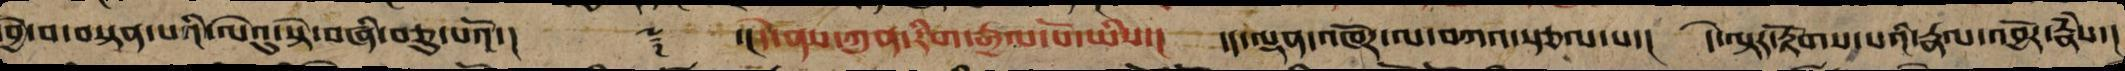བྱེ་བ་བསྟན་པའི་ལེའུ་སྟེ་བཞི་བཅུ་པའོ་།། ༈ ་།དེ་ནས་ཀུན་རིག་རྒྱལ་པོ་ཡིས་། དད་ལྡན་འཁོར་ལ་བཀའ་སྩལ་པ་། དེ་ལྟར་རྟོགས་པའི་རྣལ་འབྱོར་རྣཾས་།
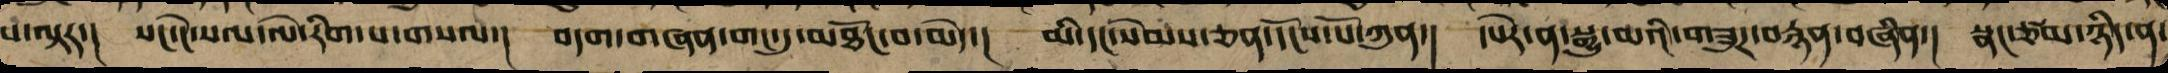པ་ལྟར་། སང་ངེ་སལ་ལེ་རིག་པ་གསལ་། བདག་གཞན་གང་དུ་མཐོང་བ་མེད་། མི་དང་སེམས་ཅན་དངོས་པོ་ཀུན་། དཔེར་ན་སྒྱུ་མའི་གཟུཌ་བརྙན་བཞིན་། སྣང་ཙམ་ཉིད་ན་
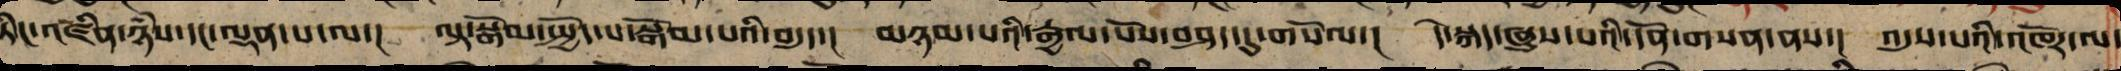ཏིང་འཛིན་ཉཾས་དང་ལྡན་པ་ལ་། ལྟ་སྒོམ་སྤྱོད་པ་སྒོམ་པའི་བདུད་། མཉམ་པའི་རྒྱལ་པོས་བཤད་དུ་གསོལ་། དེ་སྐད་ཞུས་པའི་དོན་གསན་ནས་། འདུས་པའི་འཁོར་ལ་
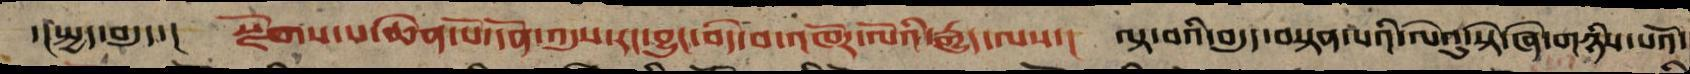་།སྤྱད་བདུད་།  སྫོགས་པ་ཆེན་པོ་དོན་འདུས་རང་བྱུང་བདེ་བའི་འཁོར་ལོའི་རྒྱུད་ལས་། ལྟ་བའི་བདུད་བསྟན་པའི་ལེའུ་སྟེ་ཞེ་གཉིས་པའོ་།
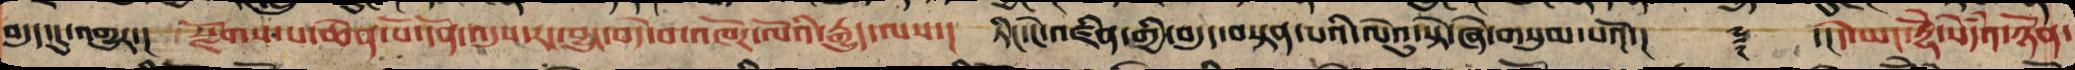བདུད་དུ་འགྱུར་།  སྫོགས་པ་ཆེན་པོ་དོན་འདུས་རང་བྱུང་བདེ་བ་འཁོར་ལོའི་རྒྱུད་ལས་། ཏིང་ངེ་འཛིན་གྱི་བདུད་བསྟན་པའི་ལེའུ་སྟེ་ཞེ་གསུམ་པའོ་།།     ༈   ་།།དེ་ཡང་རྡོེ་སེདཾའ་ཉོན་
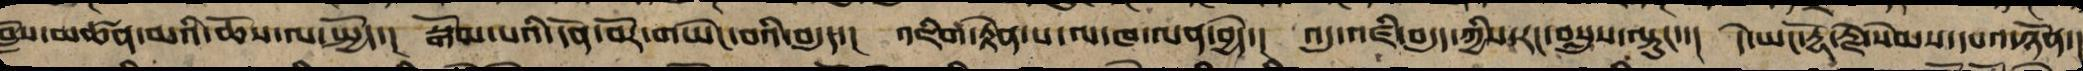བློས་མཚན་མའི་ཆོས་ལ་སྤྱོད་། སྒོམ་པའི་དོན་བོར་གཡེང་བའི་བདུད་། འཇིག་རྟེན་པ་ལ་ཁ་ལན་བྱེད་། འདུ་འཛི་བདུད་ཀྱིས་རང་བསླུས་ལྟུང་་། དེ་ཡང་རྡོ་རྗེ་སེམས་དཔའ་ཉོན་།
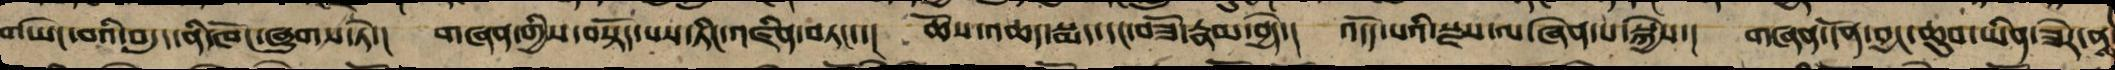གཡེང་བའི་བདུད་ནི་ཁོང་ཞུགས་ཏེ་། གཞན་གྱིས་བསྟོད་པས་ཏིང་འཛིན་བཏང་་། ཆོས་འཆད་སྨན་དང་བཟོ་རྣམ་བྱེད་། འདོད་པའི་སྫས་ལ་ཞེན་པ་སྐྱེས་། གཞན་དོན་བྱང་ཆུབ་ཡིན་ཟེར་ནས
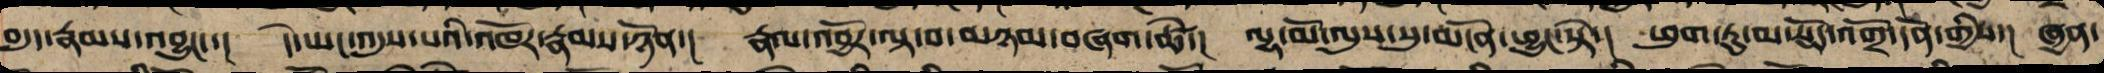བདུད་རྣམས་འབྱུང་་། དེ་ཡང་འདུས་པའི་འཁོར་རྣམས་ཉོན་། རྣལ་འབྱོར་ལྟ་བར་མཉམ་གཞག་ཚེ་། ལྷ་མོ་ལུས་སུ་མངོན་བྱུང་སྟེ་། ཕུག་ཏུ་མ་སྡོད་འགྲོ་དོན་གྱིས་། ཞྱན་
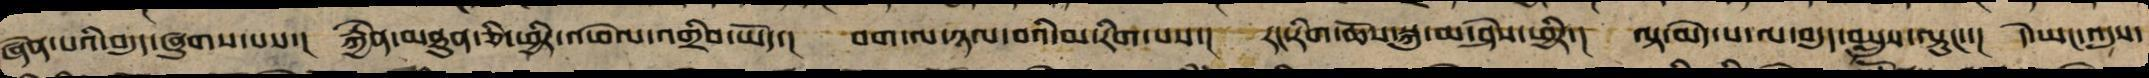ཞེན་པའི་བདུད་ཞུགས་པས་།  རྐྱེན་མཐུན་ཅི་ཕྱིར་འཕེལ་འགྲིབ་ཡོད་།  བག་ལ་ཉལ་བའི་མ་རིག་པས་།  རང་རིག་ཆོས་སྐུ་མ་ཤེས་ཕྱིར་།  ལྟ་མེད་པ་ལ་བདུད་བསླུས་ལྟུང་་།  དེ་ཡང་འདུས་
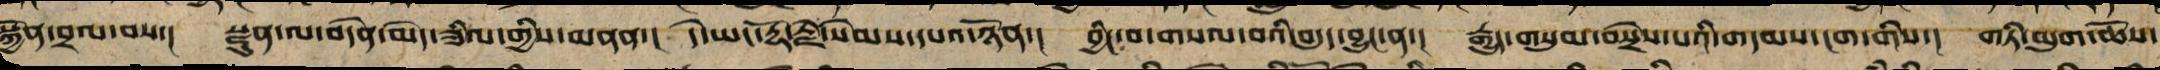སྐྱོན་བྲལ་བས་། སྫུན་ལ་བདེན་མེད་ཟིལ་གྱིས་མནན་། དེ་ཡང་རྡོ་རྗེ་སེམས་དཔའ་ཉོན་། བྱིང་བའི་གསལ་བའི་བདུད་བྱུང་ན་། རྒྱུད་གསུམ་བསྲེས་པའི་གདམས་ངག་གིས་། གཏི་མུག་ཆོས་
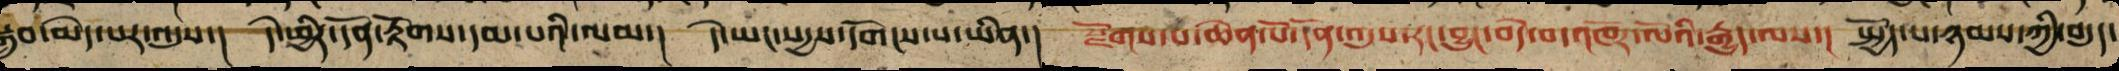སྒྲུབ་མེད་པར་འདུས་། དེ་ཕྱིར་དོན་རྟོགས་དམ་པའི་ལམ་། དེ་ཡང་སདྱས་དགོངས་པ་ཡིན་། སྫོགས་པ་ཆེན་པོ་དོན་འདུས་རང་བྱུང་བདེ་བའི་འཁོར་ལོའི་རྒྱུད་ལས་། སྤྱོད་པ་ཉམས་ཀྱི་བདུད་
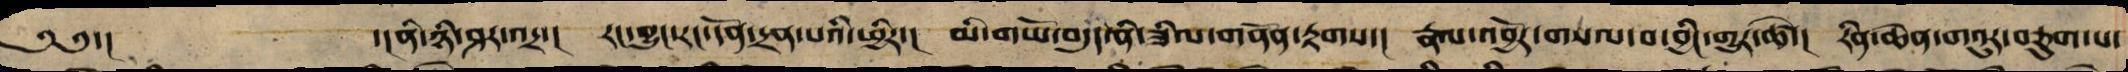༄༅་། །་ནི་ཉི་ཤར་ལྟར་། རང་བྱུང་རང་དོན་དྲན་པའི་ཕྱིར་། མི་གཡོ་བདུད་ནི་ཟིལ་ནོན་རྟགས་། རྣལ་འབྱོར་གསལ་བ་བྱིང་གྱུར་ཚེ་། རིན་ཆེན་གའུར་བཅུག་པ་
